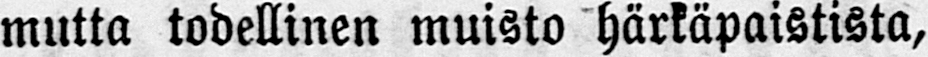mutta todellinen muisto härkäpaistista,
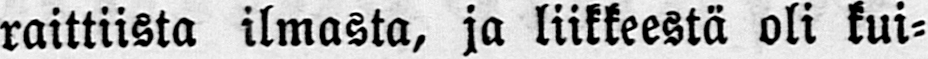raittiista ilmasta, ja liikkeestä oli kui-
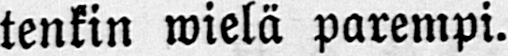tenkin wielä parempi.
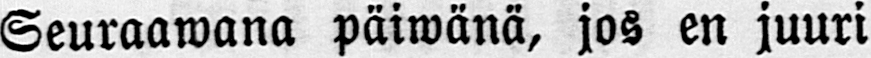Seuraawana päiwänä, jos en juuri
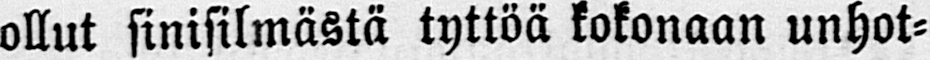ollut sinisilmästä tyttöä kokonaan unhot-
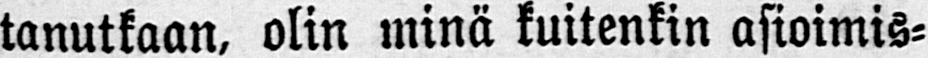tanutkaan, olin minä kuitenkin asioimis-
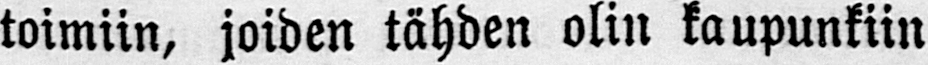toimiin, joiden tähden olin kaupunkiin
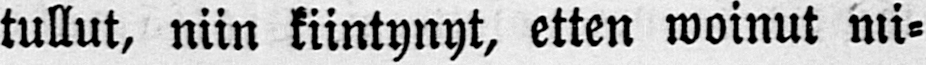tullut, niin kiintynyt, etten woinut mi-
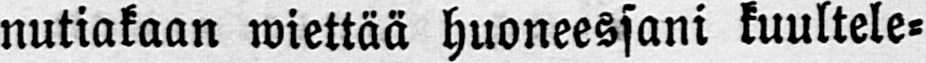nutiakaan wiettää huoneessani kuultele-
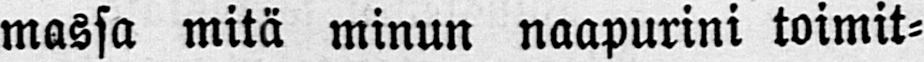massa mitä minun naapurini toimit-
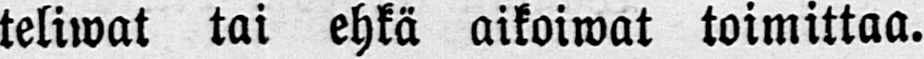teliwat tai ehkä aikoiwat toimittaa.
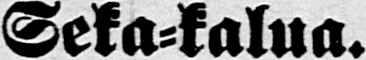Seka-kalua.
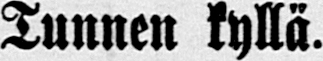Tunnen kyllä.
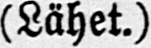(Lähet.)
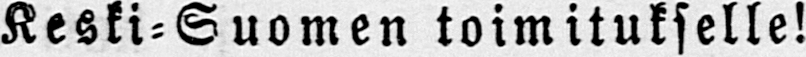Kesti-Suomen toimitukselle!
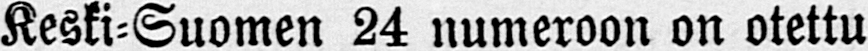Keski-Suomen 24 numeroon on otettu
